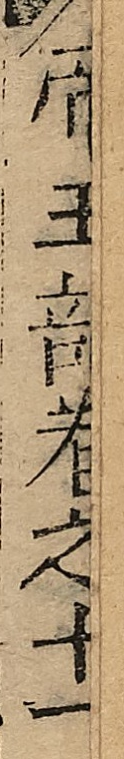帝王部卷之十一
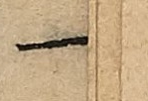一
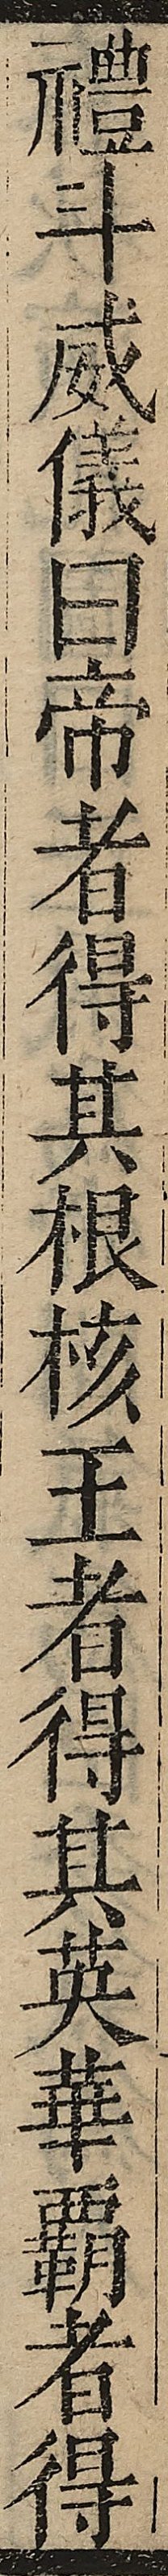禮斗威儀曰帝者得其根核王者得其英華霸者得
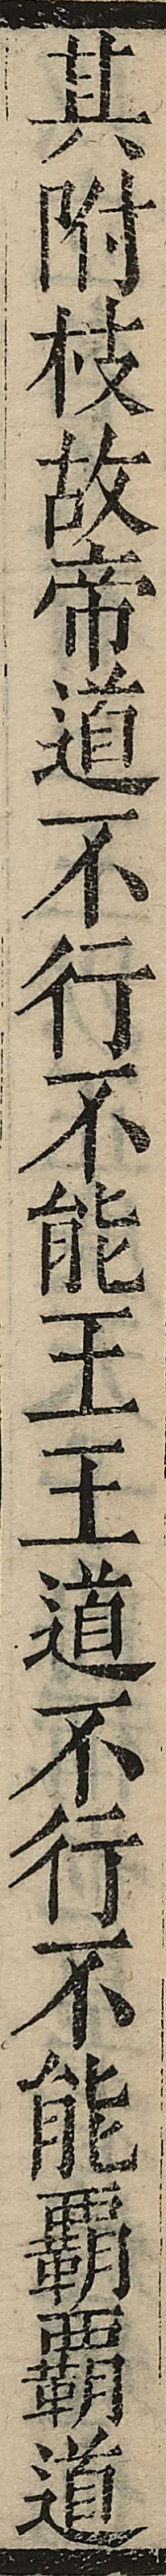其附枝故帝道不行不能王王道不行不能霸霸道
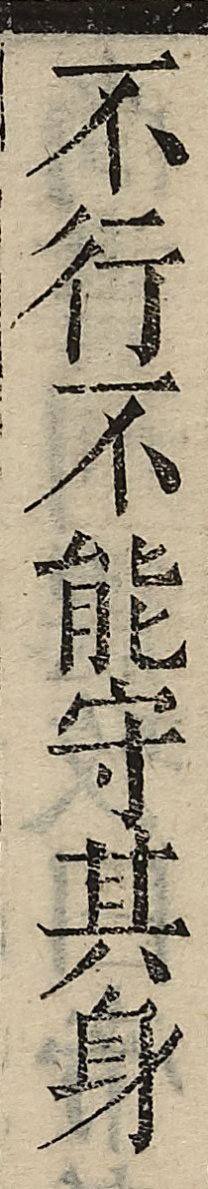不行不能守其身
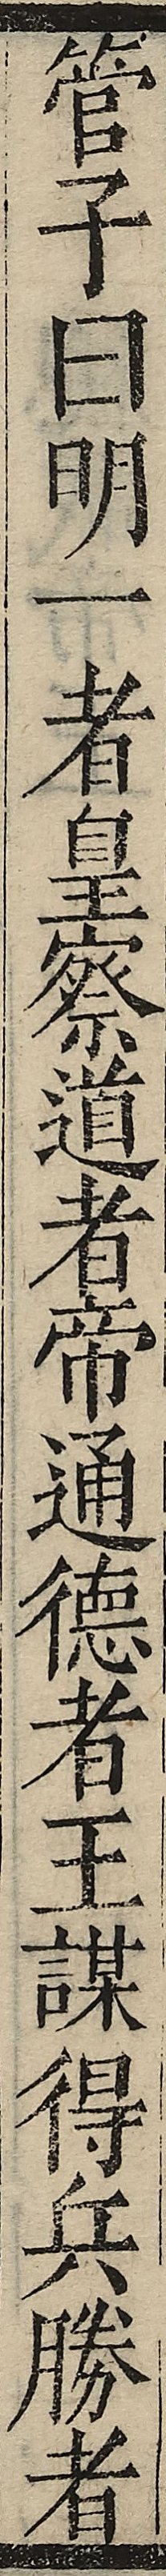管子曰明一者皇察道者帝通德者王謀得兵勝者
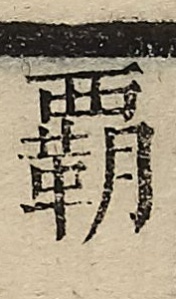霸
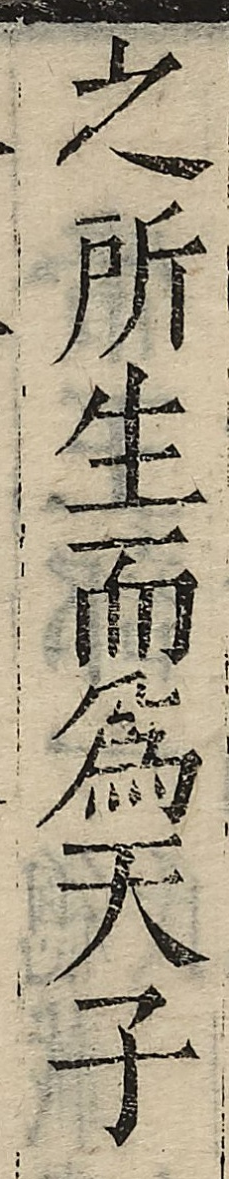之所生而為天子
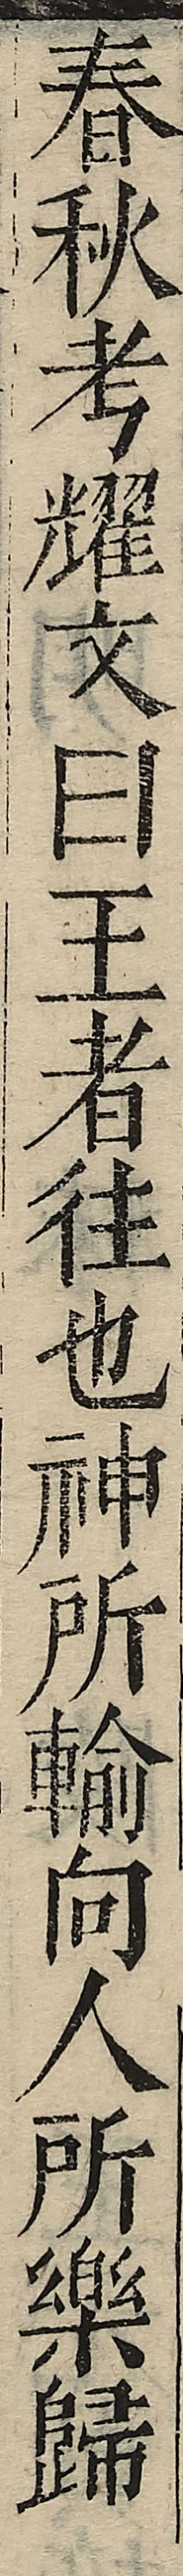春秋考耀文曰王者往也神所輸向人所樂歸
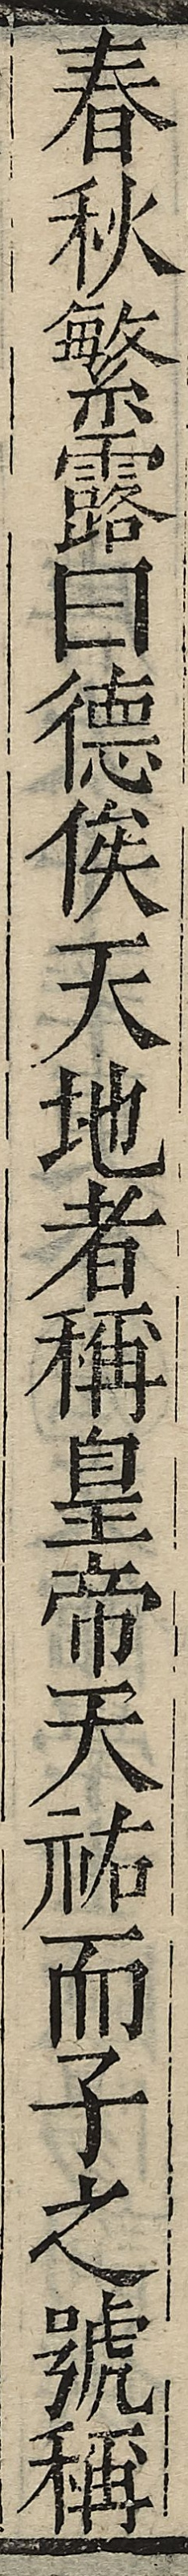春秋繁露曰德俟天地者稱皇帝天祐而子之號稱
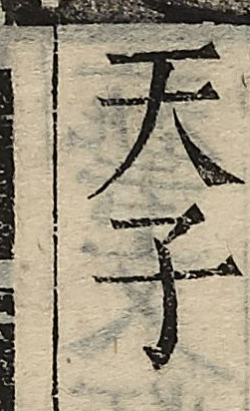天子
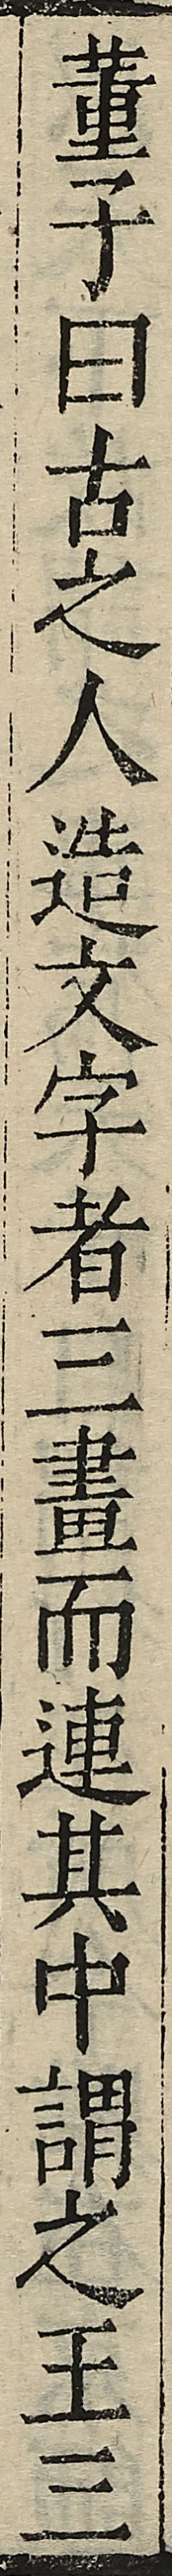董子曰古之人造文字者三畫而連其中謂之王三
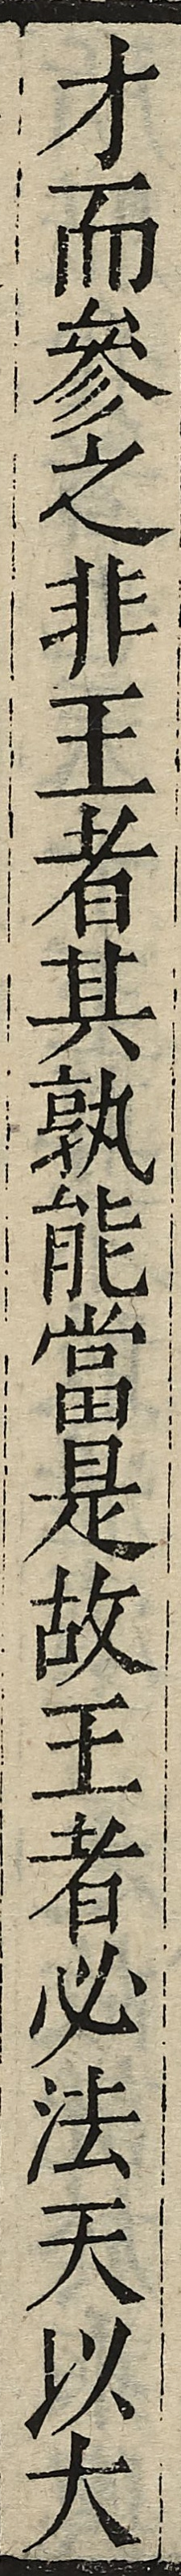才而參之非王者其孰能當是故王者必法天以大
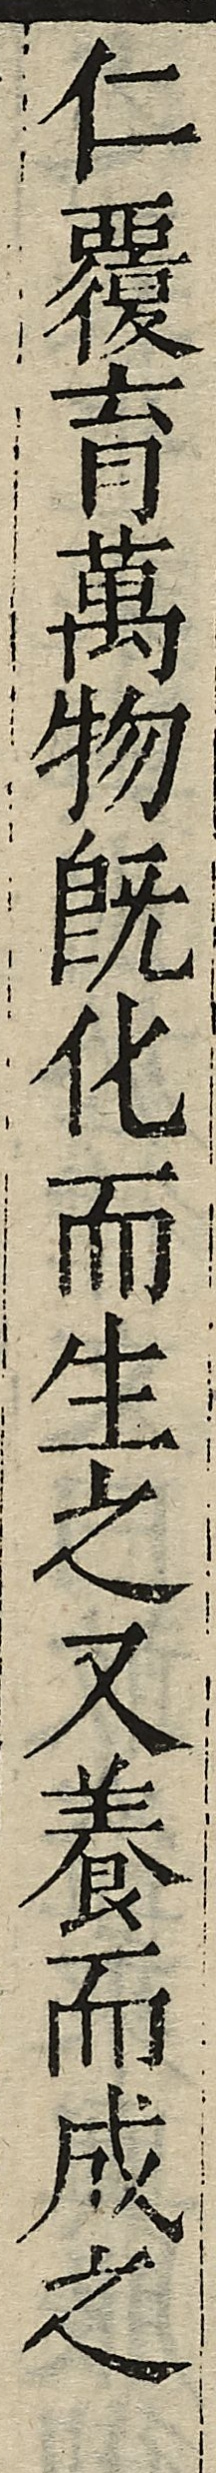仁覆育萬物既化而生之又養而成之
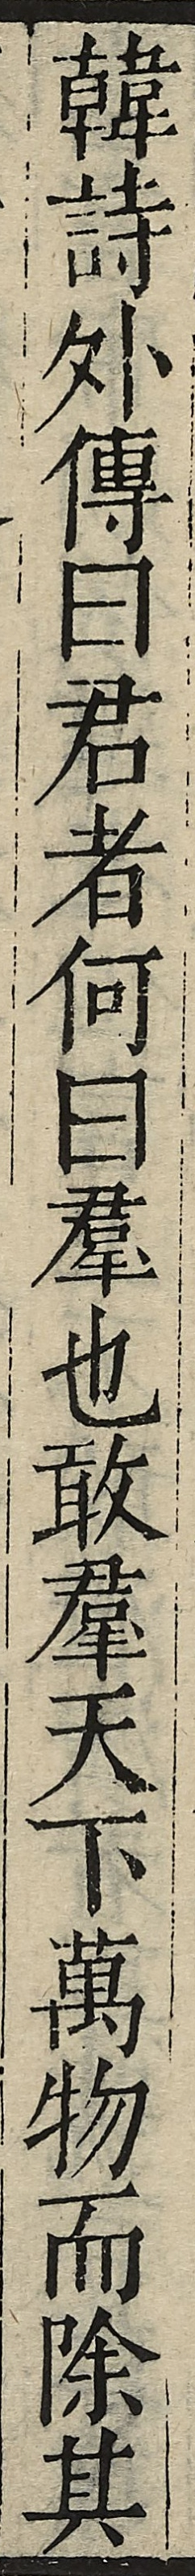韓詩外傳曰君者何曰羣也敢羣天下萬物而除其
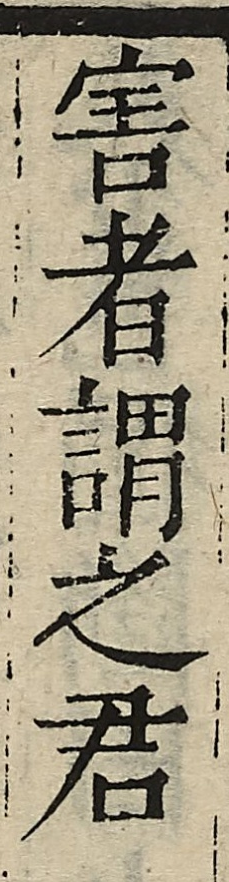害者謂之君
